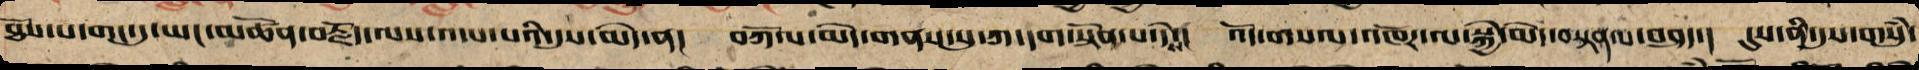ཐོས་པ་གང་དུ་ཡང་མཚོན་བརྗོད་ལས་འདས་པའི་དུས་མེད་ན་། བཀོལ་མེད་གནས་སུ་ཀ་དག་སྟོན་པ་དེས་། འོད་གསལ་འཁོར་ལ་སྐྱེ་མེད་བསྟན་པ་བཤད་། དུས་ནི་དུས་གསུཾ་
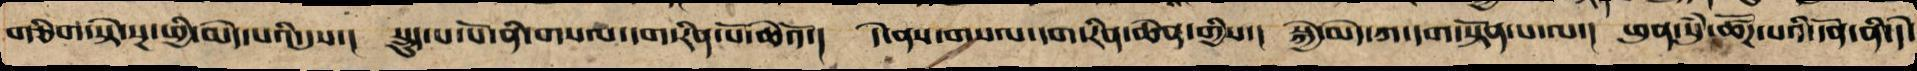གཅིག་སྟེ་སྔ་ཕྱི་མེད་པའི་དུས་། སྡུད་པ་པོ་ནི་གསལ་དག་རིན་པོ་ཆེའོ་། དེ་ནས་གསལ་དག་རིན་ཆེན་གྱིས་། སྐྱེ་མེད་ཀ་དག་སྟོན་པ་ལ་། ཕུན་སུཾ་ཚོཌ་པའི་དོན་ནི་དེ་
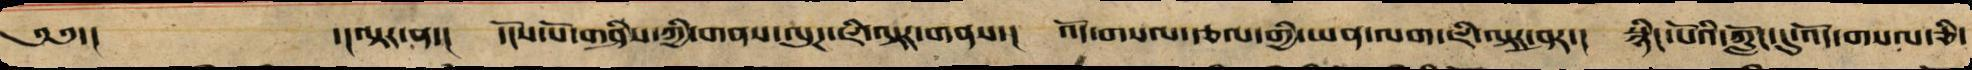༄༅་། ་།ལྟར་ན་། དངོས་པོ་གཤིས་ཀྱི་གནས་ལུཌ་ཇི་ལྟར་གནས་། འོད་གསལ་རྩལ་གྱི་ཡན་ལག་ཇི་ལྟར་ཤར་། སྙིང་པོའི་ཀློང་དུ་འོད་གསལ་ཅི་
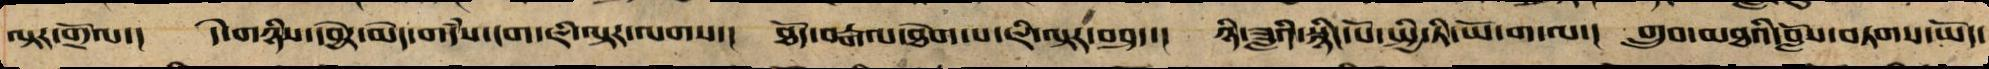ལྟར་གྲོལ་། དེ་གཉིས་དབྱེར་མེད་གདཾས་ངག་ཇི་ལྟར་ལགས་། ཐོད་རྒལ་ཐེག་པ་ཇི་ལྟར་བཤད་། ཉི་ཟླའི་སྙིང་པོ་སྤྱི་ཏི་ཡོ་ག་ལ་། གྲུབ་མཐའི་བློས་བཏགས་ཡོད་
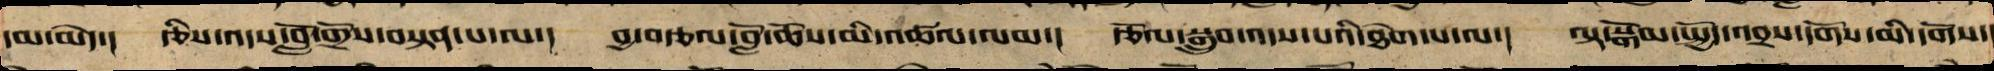དམ་མེད་། རྩིས་གདབ་བློ་གྲོས་བསྟན་པ་ལ་། བྱ་བཙལ་བློ་ཆོས་མི་འཚལ་ལམ་། རྩོལ་སྒྲུབ་འདུས་པའི་ཐེག་པ་ལ་། ལྟ་སྒོམ་སྤྱོད་འབྲས་དགོས་མི་དགོས་
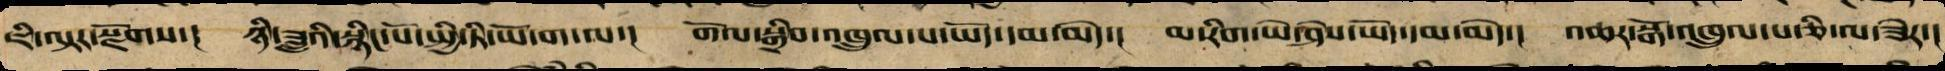ཇི་ལྟར་སྫོགས་། ཉི་ཟླའི་སྙིང་པོ་སྤྱི་ཏི་ཡོ་ག་ལ་། གོལ་སྒྲིབ་འཁྲུལ་པ་ཡོད་དམ་མེད་། མ་རིག་ཡེ་ཤེས་ཡོད་དམ་མེད་། འཆར་སྒོ་འཁྲུལ་པ་ཅི་ལ་ཟེར་།
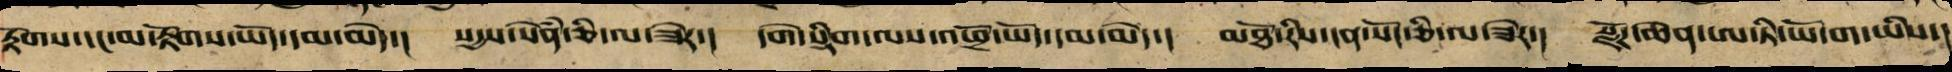རྟོགས་དང་མ་རྟོགས་ཡོད་དམ་མེད་། སདྱས་སེཾན་ཅི་ལ་ཟེར་། དགེ་སྡིག་ལས་འཕྲོ་ཡོད་དམ་མེད་། མཐོ་རིས་ངན་སོང་ཅི་ལ་ཟེར་། སྫོཌ་ཆེན་སྤྱི་ཏི་ཡོ་ག་ཡིས་།
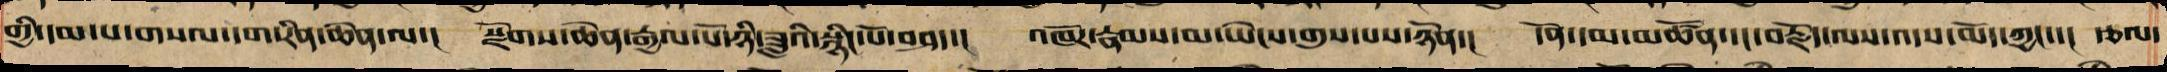གྱི་དམ་པ་གསལ་དག་རིན་ཆེན་ལ་། སྫོགས་ཆེན་རྒྱལ་པོ་ཉི་ཟླའི་སྙིང་པོ་བཤད་། འཁོར་རྣམས་མ་ཡེངས་གུས་པས་ཉོན་། དོན་དམ་མཚོན་དང་བརྗོད་ལས་འདས་མོད་ཀྱང་་། རྩལ་
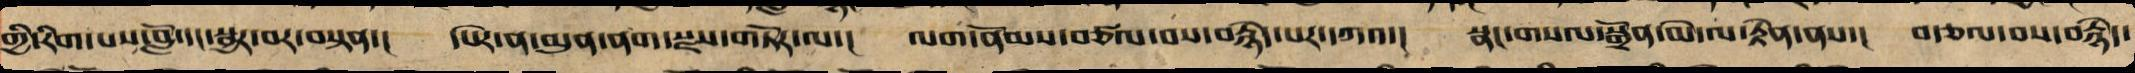གྱི་རིག་པ་བློ་དང་སྦྱར་ནས་བསྟན་། དཔེར་ན་མུན་ནག་སྫས་གཏོར་ལ་། ལག་ནོམ་བཙལ་བས་རྙེད་པར་དཀའ་། སྣང་གསལ་སྒྲོན་མེ་ལ་བརྟེན་ནས་། བཙལ་བས་རྙེད་
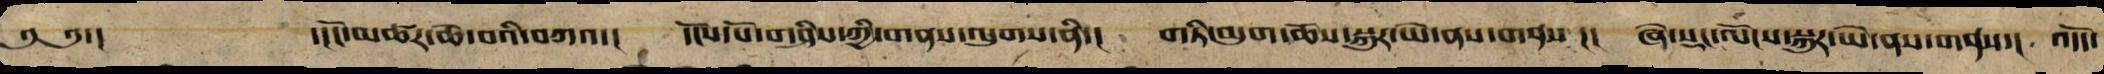༄༅་། ་།་ངོ་མཚར་ཆེ་བའི་བཀའ་། དངོས་པོ་གཤིས་ཀྱི་གནས་ལུགས་ནི་། གཏི་མུག་ཆོས་སྐུར་ཡེ་ནས་གནས་། ཞེ་སྡང་ལོངས་སྐུར་ཡེ་ནས་གནས་། འདོད་
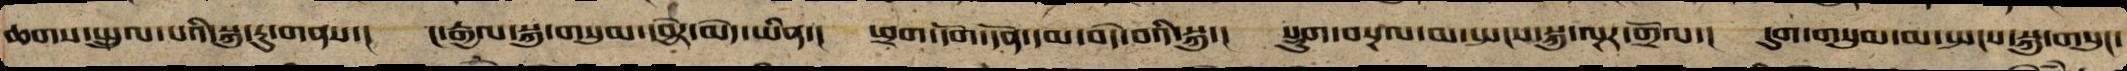ཆགས་སྤྲུལ་པའི་སྐུ་རུ་གནས་། ང་རྒྱལ་སྐུ་གསུམ་དབྱེར་མེད་ཡིན་། ཕྲག་དོག་དོན་དམ་བདེ་བའི་སྐུ་། སྡུག་བསྔལ་མ་སྤངས་སྐུ་ལྔར་གྲོལ་། དུག་གསུམ་མ་སྤངས་སྐུ་གསུང་
